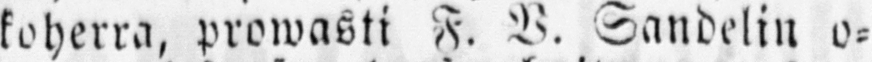koherra, prowasti F. V. Sandelin o-
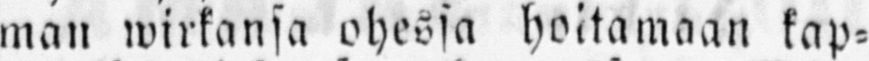man wirkansa ohessa hoitamaan kap-
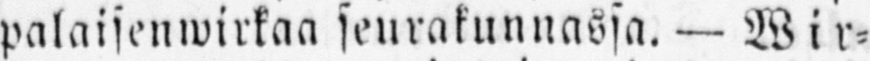palaisenwirkaa seurakunnassa. — Wir-
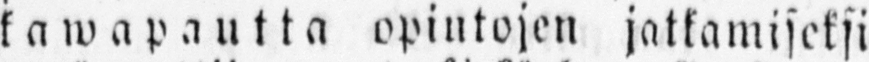kawapautta opintojen jatkamiseksi
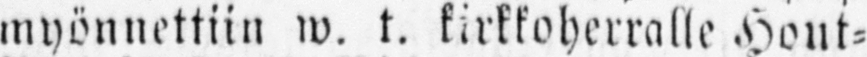myönnettiin w. t. kirkkoherralle Hout-
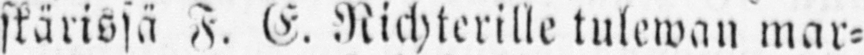skärissä F. E. Richterille tulewan mar-
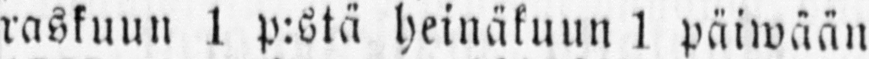raskuun 1 p:stä heinäkuun 1 päiwään
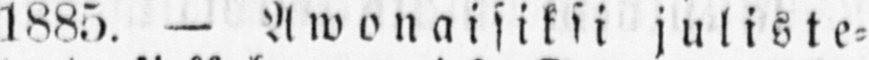1885. — Awonaisiksi juliste-
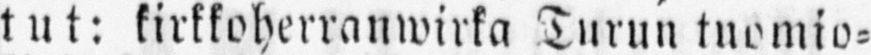tut: kirkkoherranwirka Turun tuomio-
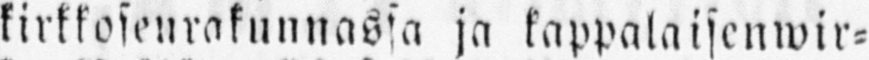kirkkoseurakunnassa ja kappalaisenwir-
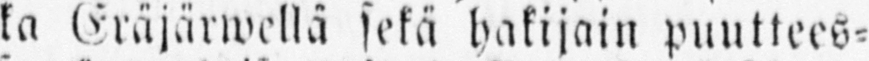ka Eräjärwellä sekä hakijain puuttees-
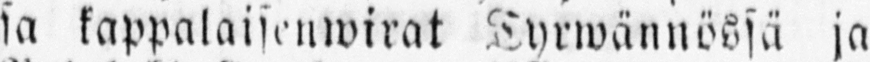sa kappalaisenwirat Tyrwännössä ja
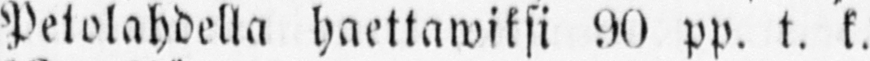Petolahdella haettawiksi 90 pp. t. k.
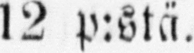12 p:stä.
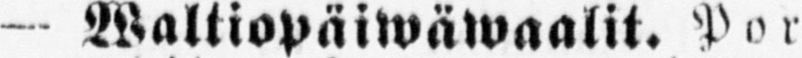- Waltiopäiwäwaalit. Por-
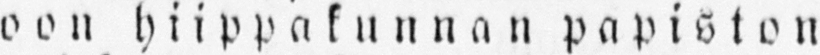woon hiippakunnan papi ston
